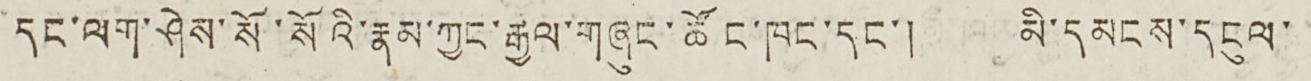དང་ལག་ཤེས་སོ་སོའི་རྣམ་ཀྱང་རྒྱལ་གཞུང་ཚོང་ཁང་དང་། མི་དམངས་དངུལ་
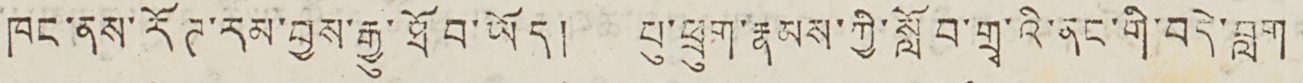ཁང་ནས་རོཊ་རམ་བྱས་རྒྱུ་ཐོབ་ཡོད། པུ་ཕྲུག་རྣམས་ཀྱི་སློབ་གྲྭ་འི་ནང་གི་བདེ་བླག
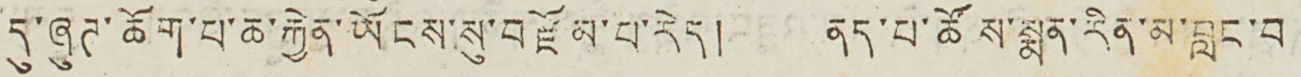དུ་ཞུཊ་ཆོག་པ་ཆ་རྐྱེན་ཡོངས་སུ་བརྫོམ་པ་རེད། ནད་པ་ཚོས་སྨན་རིན་མ་བླང་བ་
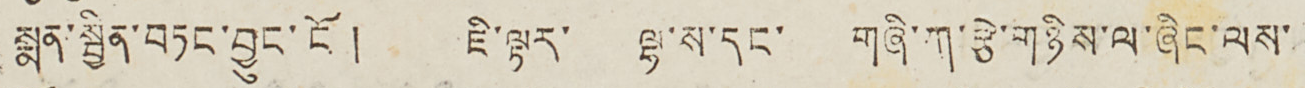སྨན་སྦྱིན་བཏང་བྱུང་ངོ། ཇི་ལྟར་ ལྷ་ས་དང་ གཞི་ཀ་རྩེ་གཉིས་ལ་ཞིང་ལས་
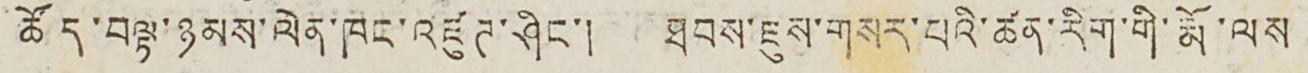ཚོད་བལྟ་ཉམས་ལེན་ཁང་འཛུཊ་ཤིང་། ཐབས་ཇུས་གསར་པའི་ཚན་རིག་གི་རྨོ་ལས
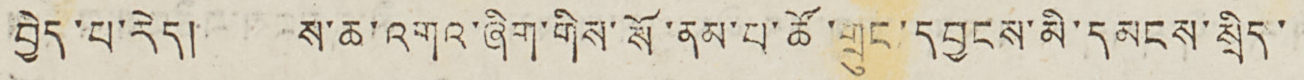བྱེད་པ་རེད། ས་ཆ་འགའ་ཞིག་གིས་སོ་ནམ་པ་ཚོ་གྲུང་དབྱངས་མི་དམངས་སྲིད་
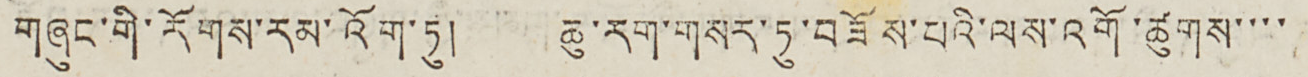གཞུང་གི་རོགས་རམ་འོག་ཏུ། ཆུ་རག་གསར་ཏུ་བཟོས་པའི་ལས་འགོ་ཚུགས་་་་
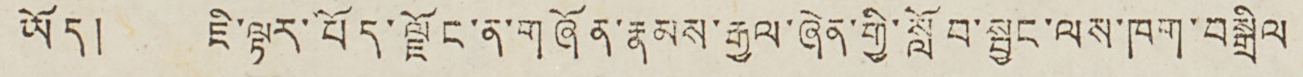ཡོད། ཇི་ལྟར་བོད་ལྗོང་ན་གཞོན་རྣམས་རྒྱལ་ཞེན་གྱི་སློབ་སྦྱང་ལས་ཁག་བསྒྲིལ
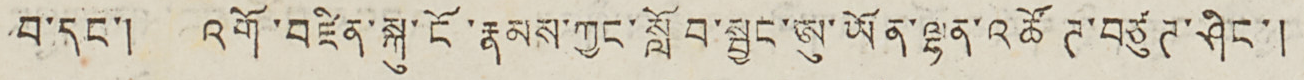བ་དང་། འགོ་བཛིན་སྐུ་ངོ་རྣམས་ཀྱང་སློབ་སྦྱང་ཨུ་ཡོན་ལྷན་འཚོཊ་བཙུཊ་ཤིང་།
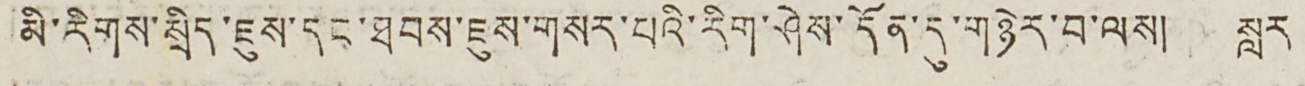མི་རིགས་སྲིད་ཇུས་དང་ཐབས་ཇུས་གསར་པའི་རིག་ཤེས་དོན་དུ་གཉེར་བ་ལས། སླར
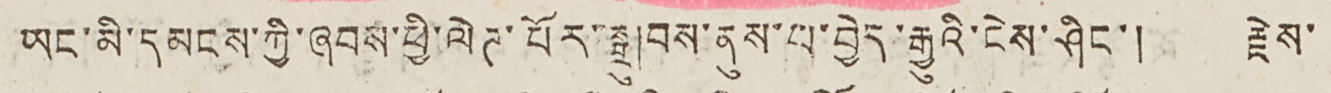ཡང་མི་དམངས་ཀྱི་ཞབས་ཕྱི་ལེཊ་པོར་སྒྲུབས་ནུས་པ་བྱེད་རྒྱུའི་ངེས་ཤིང་། རྗེས་
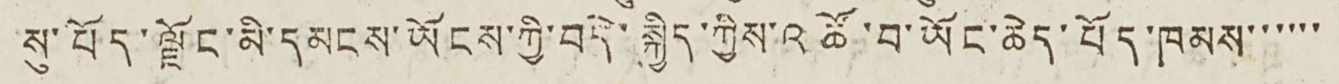སུ་བོད་ལྗོང་མི་དམངས་ཡོངས་ཀྱི་བདེ་སྐྱིད་ཀྱིས་འཚོ་བ་ཡོང་ཆེད་བོད་ཁམས་་་་་་
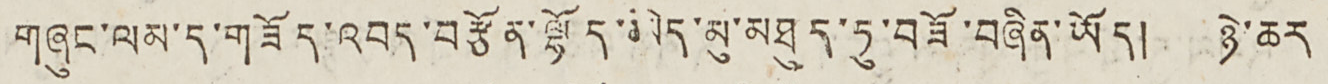གཞུང་ལམ་ད་གཟོད་འབད་བརྩོན་ལྷོད་མེད་མུ་མཐུད་ཏུ་བཟོ་བཞིན་ཡོད། ཉེ་ཆར
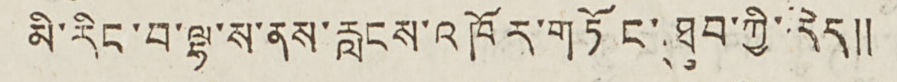མི་རིང་བ་ལྷ་ས་ནས་རླངས་འཁོར་གཏོང་ཐུབ་ཀྱི་རེད༎
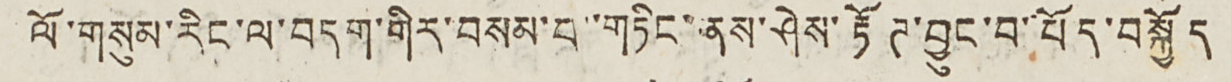ལོ་གསུམ་རིང་ལ་བདག་གིར་བསམ་པ་གཏིང་ནས་ཤེས་རྟོཊ་བྱུང་བ་བོད་བསྐྱོད
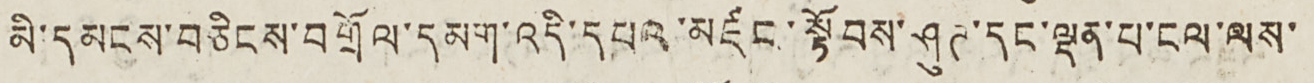མི་དམངས་བཅིངས་བགྲོལ་དམག་འདི་དཔའ་མཛང་སྟོབས་ཤུཊ་དང་ལྡན་པ་ངལ་ལས་
